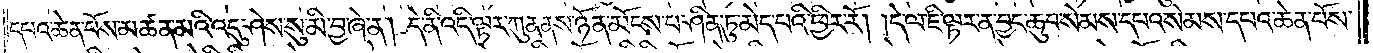དཔའ་ཆེན་པོས་མཚན་མའི་འདུ་ཤེས་སུ་མི་བྱ་ཞེ་ན། དེ་ནི་འདི་ལྟར་ཀུན་ནས་ཉོན་མོངས་པ་ཤིན་ཏུ་མེད་པའི་ཕྱིར་རོ། །དེ་ལ་ཇི་ལྟར་ན་བྱང་ཆུབ་སེམས་དཔའ་སེམས་དཔའ་ཆེན་པོས་
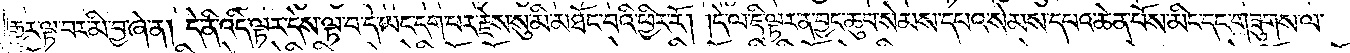རྒྱུར་ལྟ་བར་མི་བྱ་ཞེ་ན། དེ་ནི་འདི་ལྟར་དེས་ལྟ་བ་དེ་ཡང་དག་པར་རྗེས་སུ་མི་མཐོང་བའི་ཕྱིར་རོ། །དེ་ལ་ཇི་ལྟར་ན་བྱང་ཆུབ་སེམས་དཔའ་སེམས་དཔའ་ཆེན་པོས་མིང་དང་གཟུགས་ལ་
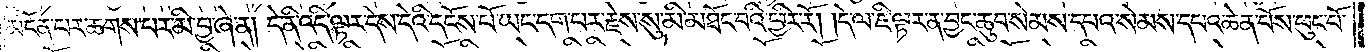མངོན་པར་ཆགས་པར་མི་བྱ་ཞེ་ན། དེ་ནི་འདི་ལྟར་དེས་དེའི་དངོས་པོ་ཡང་དག་པར་རྗེས་སུ་མི་མཐོང་བའི་ཕྱིར་རོ། །དེ་ལ་ཇི་ལྟར་ན་བྱང་ཆུབ་སེམས་དཔའ་སེམས་དཔའ་ཆེན་པོས་ཕུང་པོ་
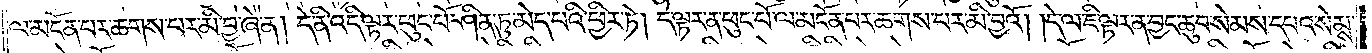ལ་མངོན་པར་ཆགས་པར་མི་བྱ་ཞེ་ན། དེ་ནི་འདི་ལྟར་ཕུང་པོ་ཤིན་ཏུ་མེད་པའི་ཕྱིར་ཏེ། དེ་ལྟར་ན་ཕུང་པོ་ལ་མངོན་པར་ཆགས་པར་མི་བྱའོ། །དེ་ལ་ཇི་ལྟར་ན་བྱང་ཆུབ་སེམས་དཔའ་སེམས་
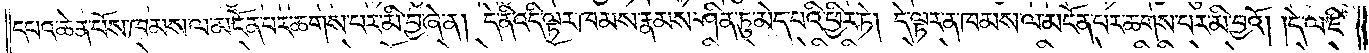དཔའ་ཆེན་པོས་ཁམས་ལ་མངོན་པར་ཆགས་པར་མི་བྱ་ཞེ་ན། དེ་ནི་འདི་ལྟར་ཁམས་རྣམས་ཤིན་ཏུ་མེད་པའི་ཕྱིར་ཏེ། དེ་ལྟར་ན་ཁམས་ལ་མངོན་པར་ཆགས་པར་མི་བྱའོ། །དེ་ལ་ཇི་
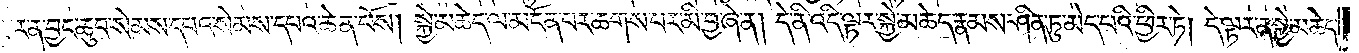ལྟར་ན་བྱང་ཆུབ་སེམས་དཔའ་སེམས་དཔའ་ཆེན་པོས། སྐྱེ་མཆེད་ལ་མངོན་པར་ཆགས་པར་མི་བྱ་ཞེ་ན། དེ་ནི་འདི་ལྟར་སྐྱེ་མཆེད་རྣམས་ཤིན་ཏུ་མེད་པའི་ཕྱིར་ཏེ། དེ་ལྟར་ན་སྐྱེ་མཆེད་
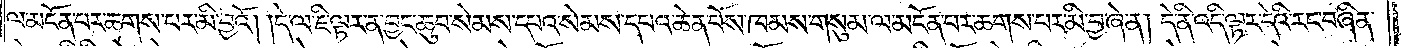ལ་མངོན་པར་ཆགས་པར་མི་བྱའོ། །དེ་ལ་ཇི་ལྟར་ན་བྱང་ཆུབ་སེམས་དཔའ་སེམས་དཔའ་ཆེན་པོས་ཁམས་གསུམ་ལ་མངོན་པར་ཆགས་པར་མི་བྱ་ཞེ་ན། དེ་ནི་འདི་ལྟར་དེའི་རང་བཞིན་
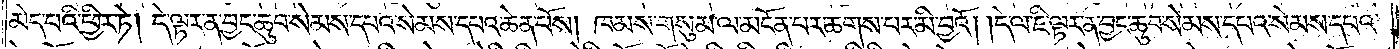མེད་པའི་ཕྱིར་ཏེ། དེ་ལྟར་ན་བྱང་ཆུབ་སེམས་དཔའ་སེམས་དཔའ་ཆེན་པོས། ཁམས་གསུམ་ལ་མངོན་པར་ཆགས་པར་མི་བྱའོ། །དེ་ལ་ཇི་ལྟར་ན་བྱང་ཆུབ་སེམས་དཔའ་སེམས་དཔའ་
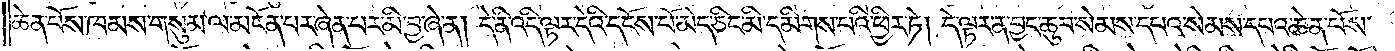ཆེན་པོས་ཁམས་གསུམ་ལ་མངོན་པར་ཞེན་པར་མི་བྱ་ཞེ་ན། དེ་ནི་འདི་ལྟར་དེའི་དངོས་པོ་མེད་ཅིང་མི་དམིགས་པའི་ཕྱིར་ཏེ། དེ་ལྟར་ན་བྱང་ཆུབ་སེམས་དཔའ་སེམས་དཔའ་ཆེན་པོས་
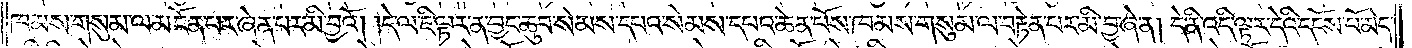ཁམས་གསུམ་ལ་མངོན་པར་ཞེན་པར་མི་བྱའོ། །དེ་ལ་ཇི་ལྟར་ན་བྱང་ཆུབ་སེམས་དཔའ་སེམས་དཔའ་ཆེན་པོས་ཁམས་གསུམ་ལ་བརྟེན་པར་མི་བྱ་ཞེ་ན། དེ་ནི་འདི་ལྟར་དེའི་དངོས་པོ་མེད་
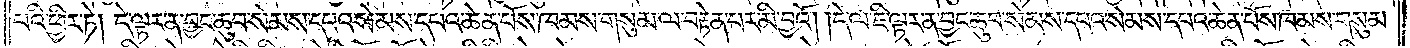པའི་ཕྱིར་ཏེ། དེ་ལྟར་ན་བྱང་ཆུབ་སེམས་དཔའ་སེམས་དཔའ་ཆེན་པོས་ཁམས་གསུམ་ལ་བརྟེན་པར་མི་བྱའོ། །དེ་ལ་ཇི་ལྟར་ན་བྱང་ཆུབ་སེམས་དཔའ་སེམས་དཔའ་ཆེན་པོས་ཁམས་གསུམ་
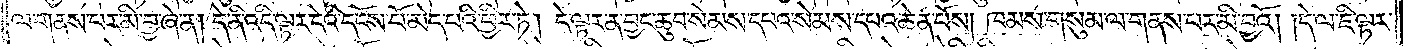ལ་གནས་པར་མི་བྱ་ཞེ་ན། དེ་ནི་འདི་ལྟར་དེའི་དངོས་པོ་མེད་པའི་ཕྱིར་ཏེ། དེ་ལྟར་ན་བྱང་ཆུབ་སེམས་དཔའ་སེམས་དཔའ་ཆེན་པོས། ཁམས་གསུམ་ལ་གནས་པར་མི་བྱའོ། །དེ་ལ་ཇི་ལྟར་
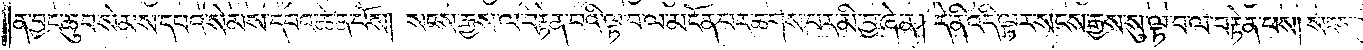ན་བྱང་ཆུབ་སེམས་དཔའ་སེམས་དཔའ་ཆེན་པོས། སངས་རྒྱས་ལ་བརྟེན་པའི་ལྟ་བ་ལ་མངོན་པར་ཆགས་པར་མི་བྱ་ཞེ་ན། དེ་ནི་འདི་ལྟར་སངས་རྒྱས་སུ་ལྟ་བ་ལ་བརྟེན་པས། སངས་རྒྱས་
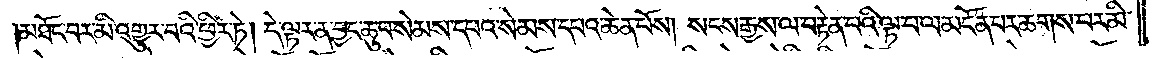མཐོང་བར་མི་འགྱུར་བའི་ཕྱིར་ཏེ། དེ་ལྟར་ན་བྱང་ཆུབ་སེམས་དཔའ་སེམས་དཔའ་ཆེན་པོས། སངས་རྒྱས་ལ་བརྟེན་པའི་ལྟ་བ་ལ་མངོན་པར་ཆགས་པར་མི་
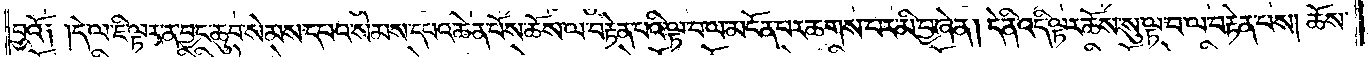བྱའོ། །དེ་ལ་ཇི་ལྟར་ན་བྱང་ཆུབ་སེམས་དཔའ་སེམས་དཔའ་ཆེན་པོས་ཆོས་ལ་བརྟེན་པའི་ལྟ་བ་ལ་མངོན་པར་ཆགས་པར་མི་བྱ་ཞེ་ན། དེ་ནི་འདི་ལྟར་ཆོས་སུ་ལྟ་བ་ལ་བརྟེན་པས། ཆོས་
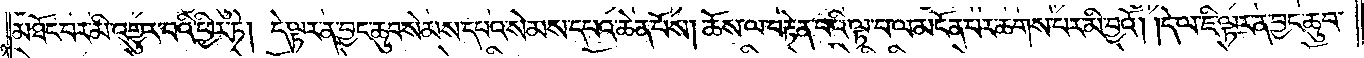མཐོང་བར་མི་འགྱུར་བའི་ཕྱིར་ཏེ། དེ་ལྟར་ན་བྱང་ཆུབ་སེམས་དཔའ་སེམས་དཔའ་ཆེན་པོས། ཆོས་ལ་བརྟེན་པའི་ལྟ་བ་ལ་མངོན་པར་ཆགས་པར་མི་བྱའོ། །དེ་ལ་ཇི་ལྟར་ན་བྱང་ཆུབ་
